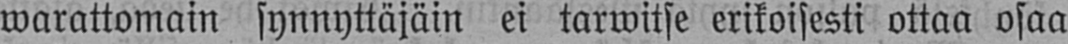warattomain synnyttäjäin ei tarwitse erikoisesti ottaa osaa
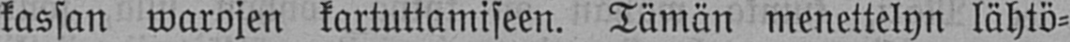kassan warojen kartuttamiseen. Tämän menettelyn lähtö-
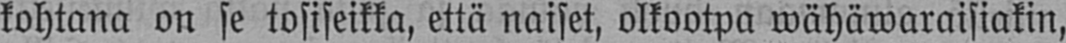kohtana on se tosiseikka, että naiset, olkootpa wähäwaraisiakin,
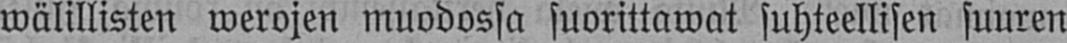wälillisten werojen muodossa suorittawat suhteellisen suuren
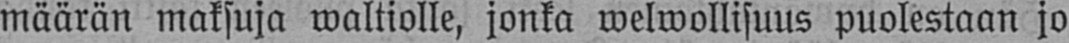määrän maksuja waltiolle, jonka welwollisuus puolestaan jo
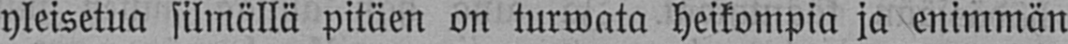yleisetua silmällä pitäen on turwata heikompia ja enimmän
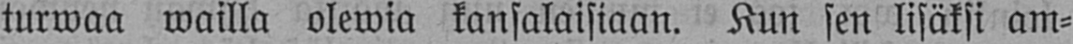turwaa wailla olewia kansalaisiaan. Kun sen lisäksi am-
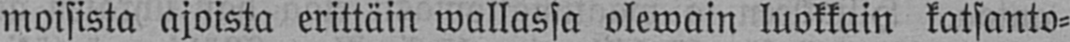moisista ajoista erittäin wallassa olewain luokkain katsanto-
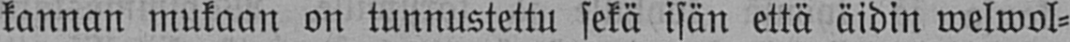kannan mukaan on tunnustettu sekä isän että äidin welwol-
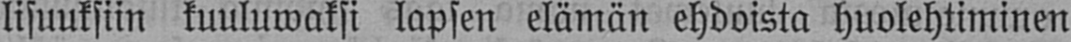lisuuksiin kuuluwaksi lapsen elämän ehdoista huolehtiminen
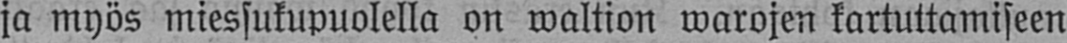ja myös miessukupuolella on waltion warojen kartuttamiseen
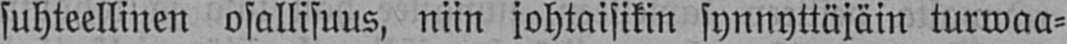suhteellinen osallisuus, niin johtaisikin synnyttäjäin turwaa-
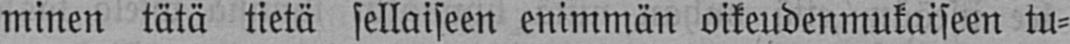minen tätä tietä sellaiseen enimmän oikeudenmukaiseen tu-
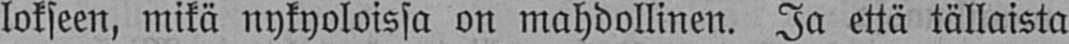lokseen, mikä nykyoloissa on mahdollinen. Ja että tällaista
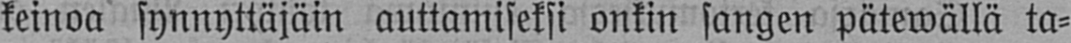keinoa synnyttäjäin auttamiseksi onkin sangen pätewällä ta-
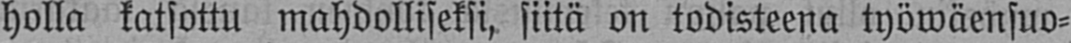holla katsottu mahdolliseksi, siitä on todisteena työwäensuo-
